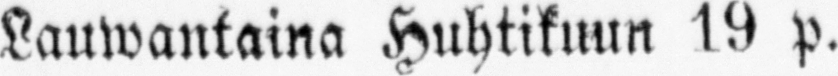Lauwantaina Huhtikuun 19 p.
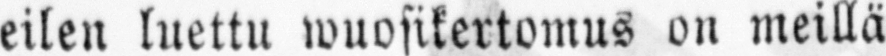eilen luettu wuosikertomus on meillä
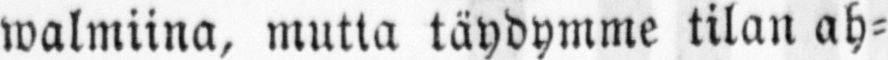walmiina, mutta täydymme tilan ah-
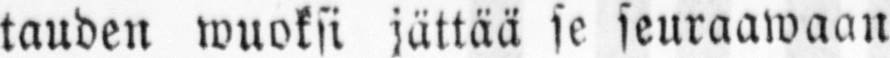tauden wuoksi jättää se seuraawaan
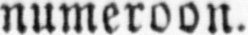numeroon.
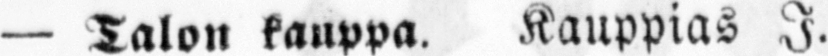— Talon kauppa. Kauppias I.
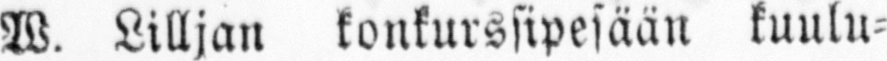W. Lilljan konkurssipesään kuulu-
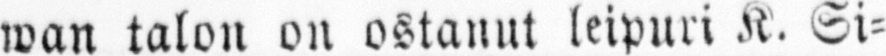wan talon on ostanut leipuri K. Si-
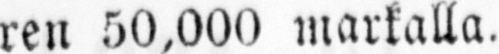ren 50,000 markalla.
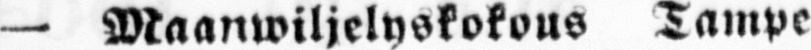— Maanwiljelyskokous Tampe-
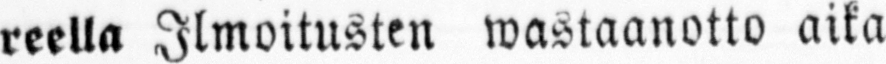reella Ilmoitusten wastaanotto aika
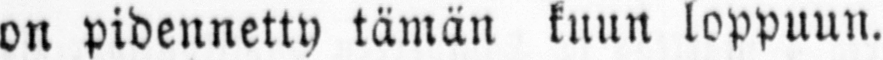on pidennetty tämän kuun loppuun.
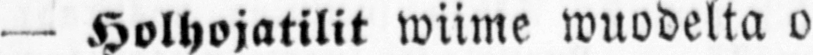— Holhojatilit wiime wuodelta o-
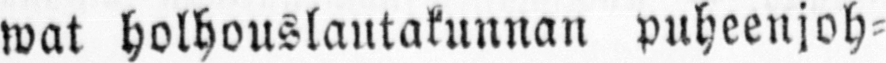wat holhouslautakunnan puheenjoh-
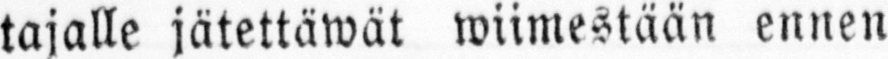tajalle jätettäwät wiimestään ennen
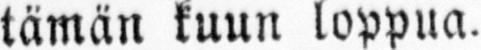tämän kuun loppua.
